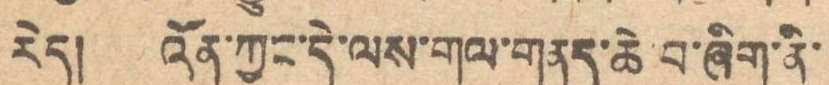རེད། འོན་ཀྱང་དེ་ལས་གལ་གནད་ཆེ་བ་ཞིག་ནི་
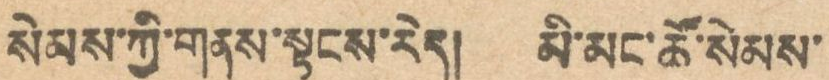སེམས་ཀྱི་གནས་སྟངས་རེད། མི་མང་ཚོ་སེམས་
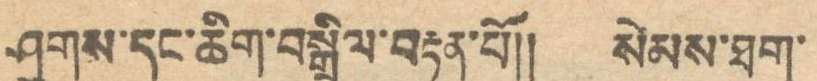ཤུགས་དང་ཆིག་བསྒྲིལ་བརྟན་པོ།། སེམས་ཐག་
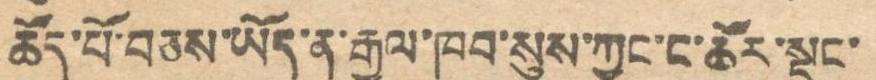ཆོད་པོ་བཅས་ཡོད་ན་རྒྱལ་ཁབ་སུས་ཀྱང་ང་ཚོར་སྡང་
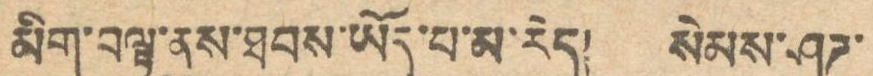མིག་བལྟ་ནུས་ཐབས་ཡོད་པ་མ་རེད། སེམས་ཤུཊ་
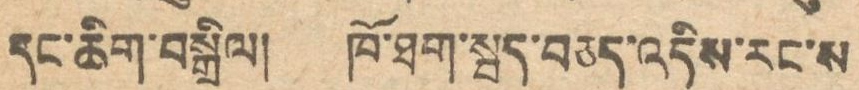དང་ཆིག་བསྒྲིལ། ཁོ་ཐག་སྦད་བཅད་འདིས་རང་ས
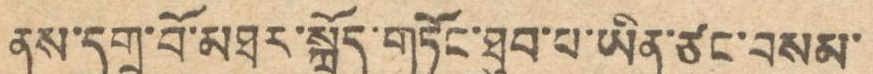ནས་དགྲ་བོ་མཐར་སློད་གཏོང་ཐུབ་པ་ཡིན་ཙང་བསམ་
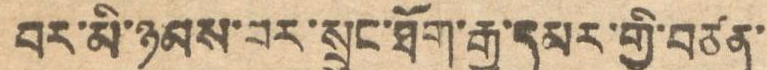བར་མི་ཉམས་བར་སྲུང་ཐོག་རྒྱ་དམར་གྱི་བཙན་
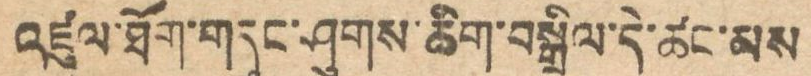འཛུལ་ཐོག་གདུང་ཤུགས་ཆིག་བསྒྲིལ་དེ་ཚང་མས
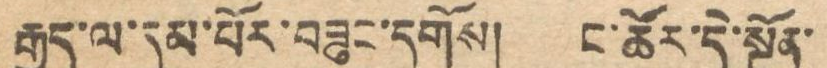རྒྱུད་ལ་དམ་པོར་བཟུང་དགོས། ང་ཚོར་དེ་སྔོན་
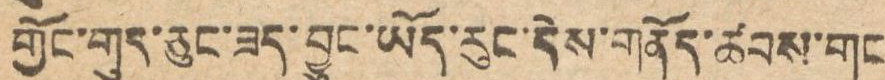གྱོང་གུད་ཅུང་ཟད་བྱུང་ཡོད་རུང་དེས་གནོད་ཚབས་གང
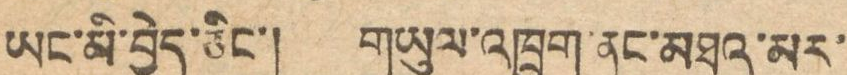ཡང་མི་བྱེད་ཅིང་། གཡུལ་འཁྲུག་ནང་མཐའ་མར་
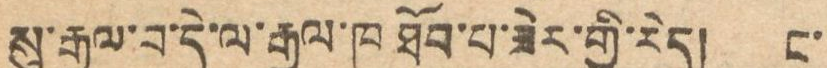སུ་རྒྱལ་བ་དེ་ལ་རྒྱལ་ཁ ཐོབ་པ་ཟེར་གྱི་རེད། ང་
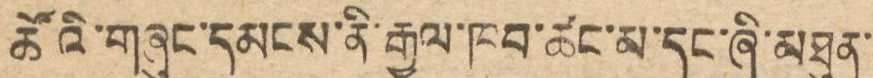ཚོའི་གཞུང་དམངས་ནི་རྒྱལ་ཁབ་ཚང་མ་དང་ཞི་མཐུན་
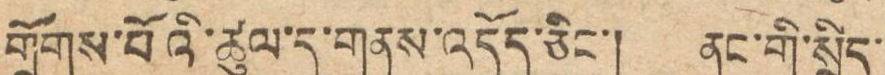གྲོགས་པོའི་ཚུལ་དུ་གནས་འདོད་ཅིང་། ནང་གི་སྲིད་
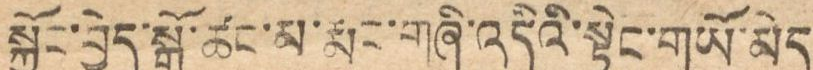སྐྱོང་བྱེད་སྒོ་ཚང་མ་རྨང་གཞི་འདིའི་སྟེང་གཡོ་མེད
